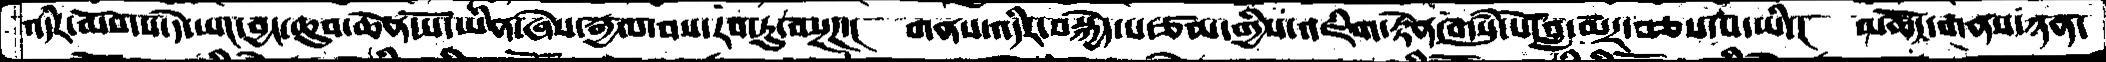འདིར་མོས་པ་དེ་ཡང་བྱང་ཆུབ་ཆེན་པོ་ཡིན་ཞེས་རྒྱལ་བས་རབ་ཏུ་བསྔཌ་།  གནས་འདིར་བསྐྱེད་པ་ཙམ་གྱིས་འཇིག་རྟེན་གསུཾ་པོ་བླ་མར་བཅས་པ་ཡི་།  མཆོད་གནས་ཉན་
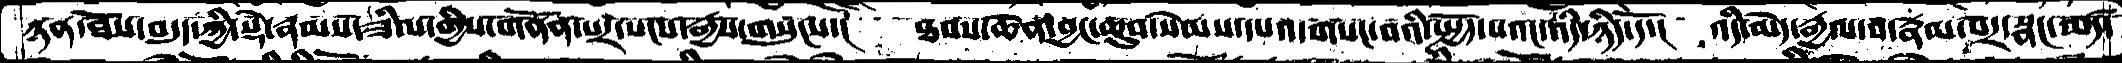ཉན་ཐོས་བདུད་ཀྱི་སྡེ་རྣམས་ཟིལ་གྱིས་གནོན་པར་སངས་རྒྱས་གསུངས་།  ཐབས་ཆེན་བྱང་ཆུབ་སེམས་དཔའ་གསང་བའི་སྤྱོད་པའང་འདི་ཉིད་དོ་།  འདི་མེད་རྒྱལ་བ་རྣམ་པར་སྣང་མཛད་
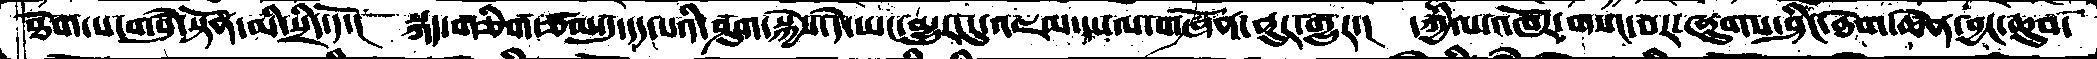ཐེག་པ་གསུཾ་སྟོན་མི་སྲིད་དོ་།  སྐད་གཅིག་ཙམ་དུ་དད་པའི་ཤུག་སྐྱེས་དེ་ཡང་མྱུར་དུ་འཇམ་དཔལ་གཞོན་ནུར་གྱུར་།  དཀྱིལ་འཁོར་གསང་བར་ཞུགས་ཤིང་ཐེག་ཆེན་བྱང་ཆུབ་
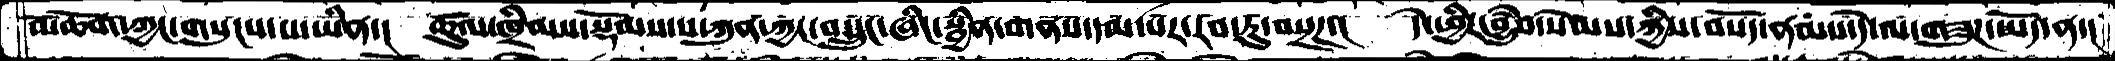མཆོག་ཀྱང་གསུངས་པ་ཡིན་།  ཚུལ་ཁྲིམས་སྡོམས་པ་ཀུན་ཀྱང་བསྲུང་ཞིང་སྦྱིན་གནས་དམ་པར་རབ་ཏུ་བསྔཌ་།  དེ་ཕྱིར་བྱུཾབ་སེམས་ཀྱིས་བསོད་ནམས་དེ་ལ་གཟུཌ་ཡོད་ན་།
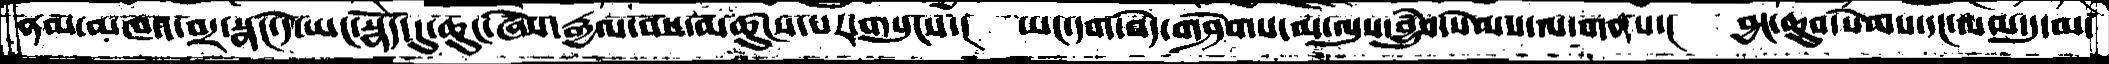ནམ་མཁའ་བར་སྣང་དེ་ཡང་སྣོད་དུ་ཆུང་ཞེས་རྒྱལ་བས་མཚུངས་པར་གསུངས་།  ཡང་དག་བདེ་གཤེགས་མ་ལུས་བྱུཾབ་སེམས་ལ་གནས་།  བྱང་ཆུབ་སེེམས་དང་ལམ་དུ་མ་
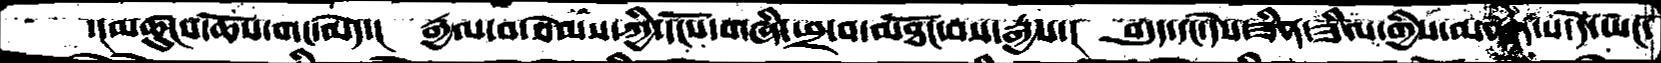་།མཚུངས་ཆོས་གང་མེད་།  རྒྱལ་བ་སེམས་ཀྱི་དངོས་གཞི་ཕྲ་བ་མཐོང་བས་རྒྱས་།  བདུད་དང་དེས་ཟིན་ཟིལ་གྱིས་མནན་པ་དེ་ཡང་
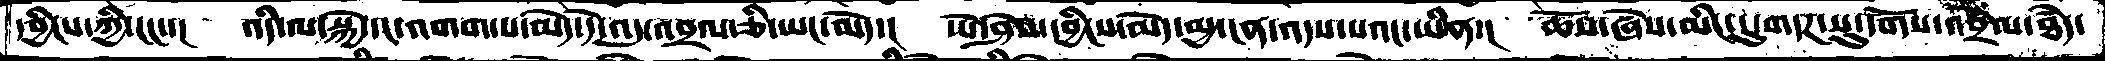དབྱིངས་ཀྱི་ངང་་།  འདི་ལ་སྐྱེ་དང་འགག་པ་མེད་དེ་འདུ་འབྲལ་ཅི་ཡང་མེད་།  ཡེ་ཤེས་དབྱིངས་མེད་མྱ་ངན་འདས་པའང་ཡིན་།  ཆོས་ཞེས་མིང་དུ་གདཌ་སུ་དགོས་འབྲེལ་ཐཾད་
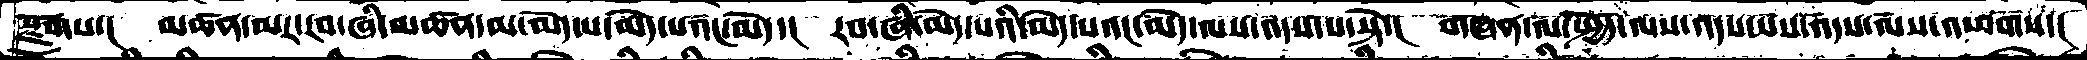སྫོགས་།  མཚན་མར་རབ་ཞི་མཚན་མ་མེད་པ་མེད་པའང་མེད་།  རབ་ཞི་མེད་པའི་མེད་པའང་མེད་ལས་འདས་པ་སྟེ་།  གཞན་ལ་སྤྱོད་ལས་འདས་པས་འདས་ལས་འཕགས་།
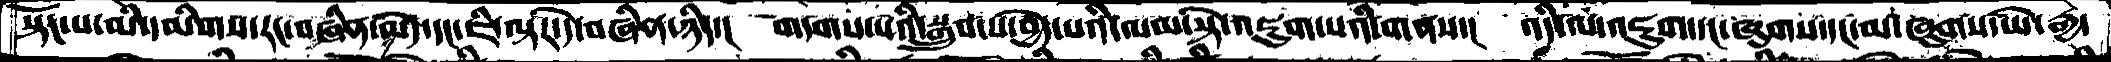སྟོང་པ་མི་དམིགས་རང་བཞིན་མེད་དང་ཇི་ལྟར་དེ་བཞིན་ཉིད་།  གདགས་པའི་སྒྲུབ་པ་བྱེད་པའི་ལམ་སྟེ་འཇུག་པའི་གནས་།  འདི་ལ་འཇུག་དང་ཞུགས་དང་མ་ཞུགས་ཡེ་རྒྱ་
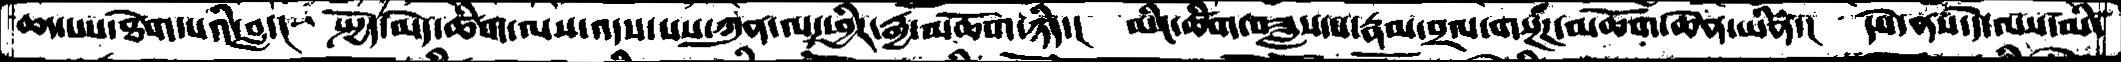ཆད་པས་ཐེག་པའི་བླ་།  སྤྱོད་མེད་ཚིག་ལས་འདས་པས་ཀུན་ལ་ཕྱིར་རྒྱ་མཆོག་ཉིད་།  མིང་ཚིག་བཟླས་པ་རྣམ་བྲལ་གསྔཾཌ་མཆོག་ཆེན་ཡིན་།  དཔེ་ནས་དེ་ལས་མི་
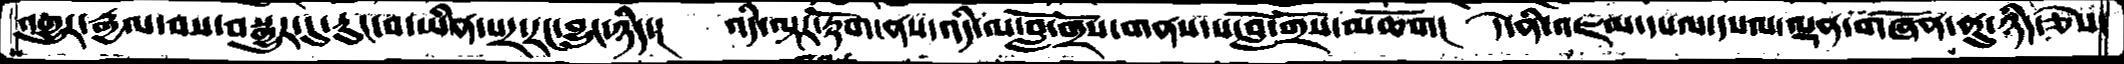འགྱུར་རྒྱལ་བས་བསྒྱུར་དུ་རུང་བ་ཡིན་པར་རང་བྱུང་ཉིད་།  འདི་ལྟར་རྟོག་ནས་འདི་ལ་བློ་གྲོས་གནས་པ་བློ་གྲོས་མཆོག།  དེ་ནི་འཇམ་དཔལ་དཔལ་ལྡན་གཞོན་ནུ་ཉིད་ཅེས་
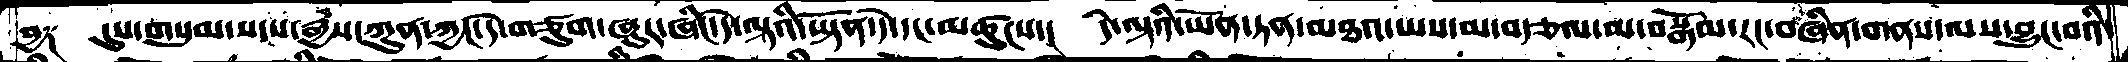བྱ༑  དུས་གསུམ་སངས་རྒྱས་ཀུན་ཀྱང་དེ་གཙུག་ཞུར་ཞིང་དེ་ལྟའི་ཡྟོན་དེ་དང་མཚུངས་།  དེ་ལྟའི་ཡོན་ཏན་མཐའ་ཡས་མ་བརྩལ་མ་བསྒོམ་རང་བཞིན་གནས་ལས་བྱུང་བའི་
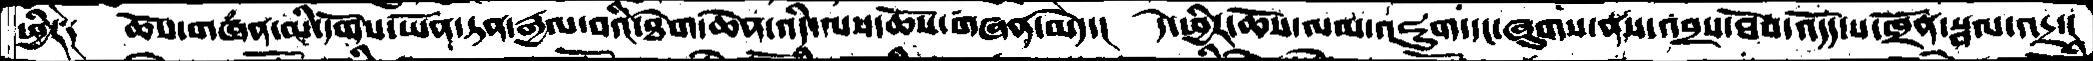ཕྱིར༑  ཆོས་གཞན་མི་དགོས་ཡོན་ཏན་རྒྱལ་བའི་ཐེག་ཆེན་འདི་ལས་ཆོས་གཞན་མེད་།  དེ་ཕྱིར་ཆོས་ལམ་འཇུག་དང་ཞུགས་ནས་འབྲས་ཐོབ་འདོད་པ་ཁྲོན་སྦལ་འདྲ་།
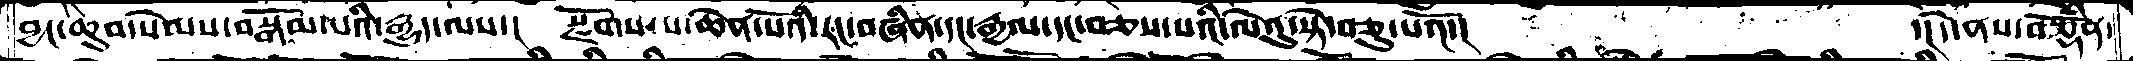བྱང་ཆུབ་སེམས་བསྒོམ་པའི་རྒྱུད་ལས་།  སྫོགས་པ་ཆེན་པོའི་རང་བཞིན་དང་རྒྱལ་དང་བཅས་པའི་ལེའུ་སྟེ་བཅུ་པའོ་།          ་།དེ་ནས་བཅྡོཾན་
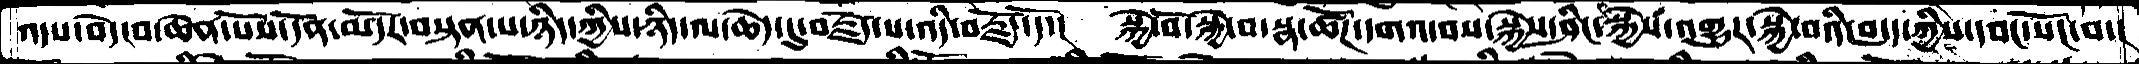འདས་བདེ་བ་ཆེན་པོས་དོན་མདོར་བསྟན་པ་ཉིད་ཀྱིས་ཉིད་ལ་ཆེད་དུ་བརྗོད་པ་འདི་བརྗོད་དོ་།  སྐྱེ་བོ་སྐྱེ་བ་སྣ་ཚོཌ་དགའ་བས་སྐྱེས་ཤིང་སྐྱེས་འགྱུར་སྐྱེ་བའི་བདུད་ཀྱིས་དབང་སོང་བ་།
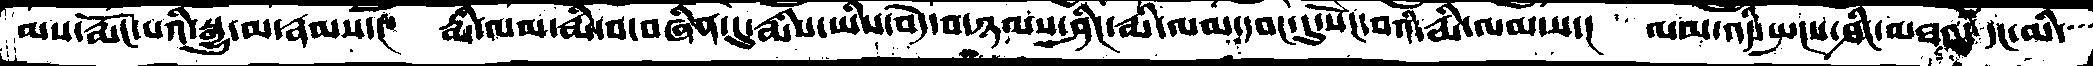ལས་རྨོང་པའི་སྒྱུ་མ་རྣམས་།   རྨི་ལམ་རྨི་བ་བཞིན་དུ་རྨིས་ཡིས་བདེ་བ་ཉམས་ཤིང་རྨི་ལམ་དབང་དུ་སོང་བའི་རྨི་ལམ་ས་།   ལམ་འདི་སྤངས་ཤིང་མཐའ་ དང་མི་
